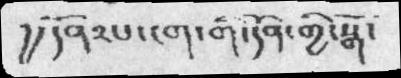།།དོན༢པ་ངག་གི་དོན་གྱི་སྒོ་
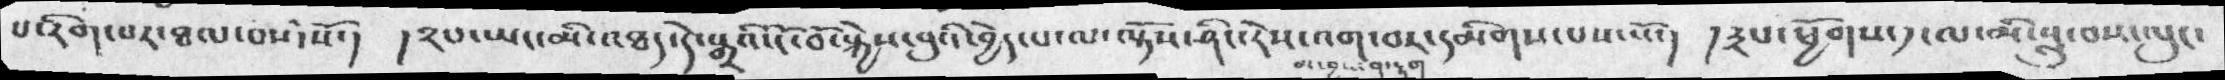པ་རིག་པར་ཐལ་བས་སོ་།  ། ༢པ་ཡང་མི་འཐད་དེ་སྒྲའི་ངོ་བོ་སྐྱེས་བུའི་བྱེད་པ་ལ་ལྟོས་ཤིང་རེས་འག་བར་དམིགས་པས་སོ་།   །༣པ་ཕྱོགས་༡་ལ་མི་སླུ་བས་ལུང་
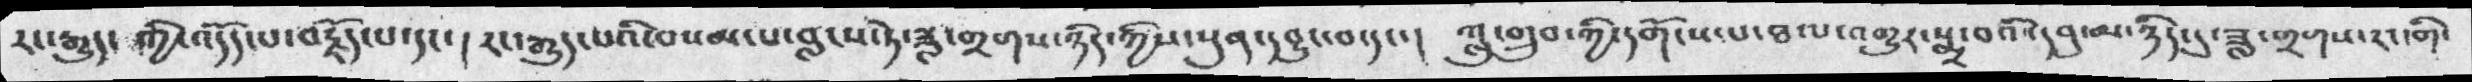རང་རྒྱུད  ཀྱི་འདོད་པ་བརྗོད་པ་དང་།  རང་རྒྱུད་པའི་བསམ་པ་བླངས་ཏེ་ཟླ་གྲགས་ཉིད་ཀྱིས་སུན་དབྱུང་བ་དང་། ཀླུ་གྲུབ་ཀྱི་དགོངས་པ་ཐལ་འགྱུར་སྨྲ་བའི་དདབུ་མ་ཉིད་དུ་ཟླ་གྲགས་རང་གི་
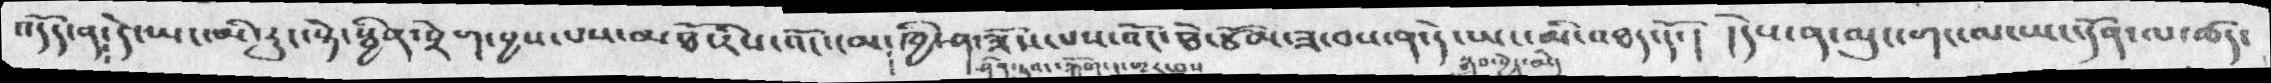འདོད་ན།  དེ་ཡང་མི་རུང་སྟེ་སྦྱིན་སྲེག་བྱས་པས་མཐོ་རིས་འོང་མ།ཁྱི་ཤ་ཟོས་པས་འོང་ཐེ་ཙམ་ས་བས་ན་དེ་ཡང་སྒབ་བྱེད་མི་འཐད་དོ་།  །དེས་ན་མུང་གང་ལ་ཡང་དོན་ལ་ཚད་
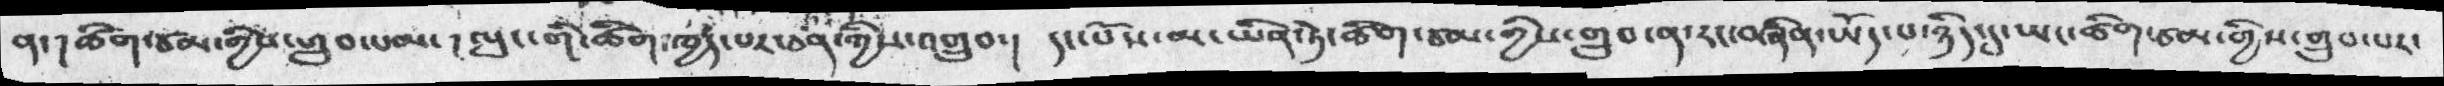ན་། ཚིག་ཙམ་གྱིས་གྲུབ་པམ་། ལུང་གི་ཚིག་ཁྱད་པར་ཅན་གྱིས་འགྲུབ་། དང་པོས་མ་ཡིན་ཏེ་ཚིག་ཙམ་གྱིས་གྲུབ་ན་རང་བཞིན་ཡོད་པ་ཉིད་དུ་ཡང་ཚིག་ཙམ་གྱིས་གྲུབ་པར་
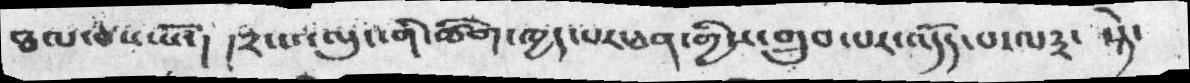ཐལ་བས་སོ་།  ། ༢་པ་ལུང་གི་ཚིག་ཁྱད་པར་ཅན་གྱིས་གྲུབ་པར་འདོད་པ་ལ༣་  སྟེ་
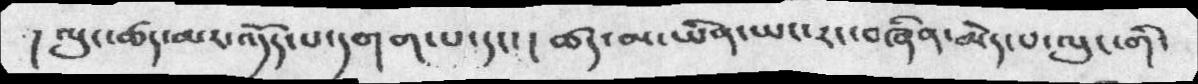། ལུང་ཚད་མར་འདོད་པ་དགག་པ་དང་། ཚད་མ་ཡིན་ཡང་རང་བཞིན་མེད་པ་ལུང་གི་
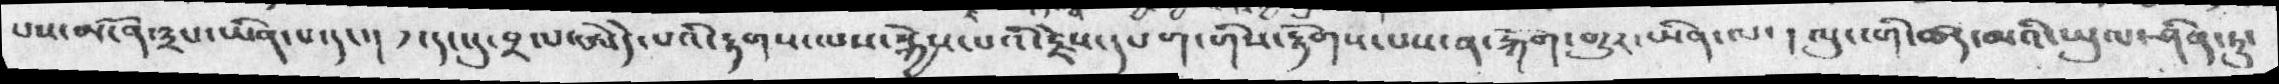པས་མངོན་ཟས་ཡིན་པ་དང་།  ་དང་དུ་བྲལ་ཨེདེ་པའི་རྟགས་པས་སྐྱེས་པའི་རྗེས་དཔག་གིས་རྟོགས་པས་ན་སྐོག་བདུར་ཡིན་ལ་། ལུང་གི་ཚད་ངའི་མའི་ཡུལ་ཤིན་ཏུ་
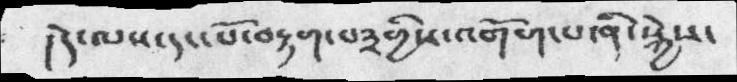།དེ་ལས་དང་པོ་བརྟག་པ༣གྱིས་འགོག་པ་ནི་སྐྱེས་
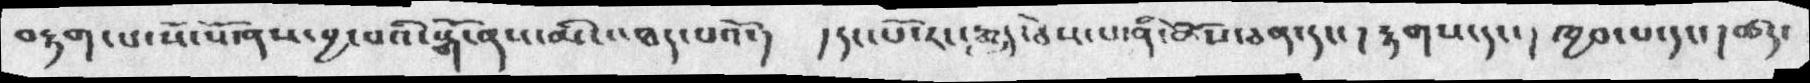བརྟག་པ་སོ་སོ་ནས་བྱ་བའི་སྒོ་ནས་མི་འཐད་པའོ་།  ། དང་པོ་རང་རྒྱུད་ཅེས་པ་ནི་ཆོས་ཅན་དང་ ། རྟགས་དང་ ། ཁྱབ་པ་དང་། ཚད་
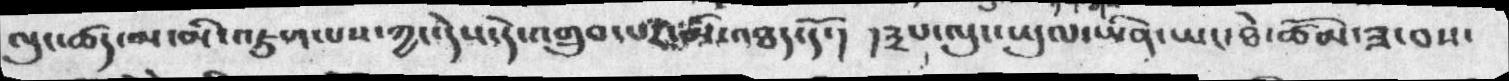ལུང་ཚད་མ་མི་འཇུག་པས་ཀྱང་དེས་དེ་འགྲུབ་པར་མི་འཐད་དོ་།   །༣པ་ལུང་ཡུལ་ཡིན་ཡང་ཐེ་ཚོམ་ཟ་བས་
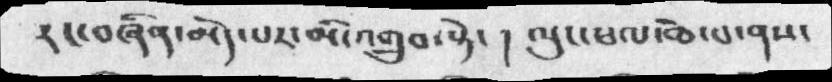རང་བཞིན་མེད་པར་མི་འགྲུབ་སྟེ་  ། ལུང་ཕལ་ཆེ་བ་ནས་
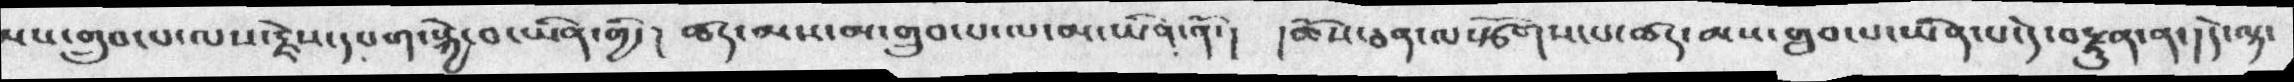སས་གྲུབ་པ་ལས་རྗེས་དཔག་སྐྱེ་བ་ཡིན་གྱི་། ཚད་མས་མ་གྲུབ་པ་ལ་མ་ཡིན་ནོ་། །ཆོས་ཅན་ལསྩོགས་པ་གྲུབ་པ་ཡིན་དེ་བརྗུན་ན་། དེར་ལྟ་
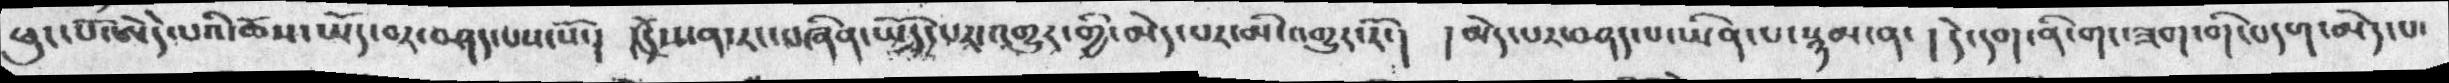ཕུང་པོ་ཨེདེ་པའི་ཆོས་ཡོད་བར་བཤད་པས་སོ་།  ་དེས་ན་རང་བཞིན་ཡོདྭ་པར་འགྱུར་གྱི་མེད་པར་མི་འགྱུར་རོ་།  ། མེད་པར་བཤད་པ་ཡིན་པ་སྙམ་ན་ ། དེ་དག་ནི་གང་ཟག་གི་བདག་མེད་པ་
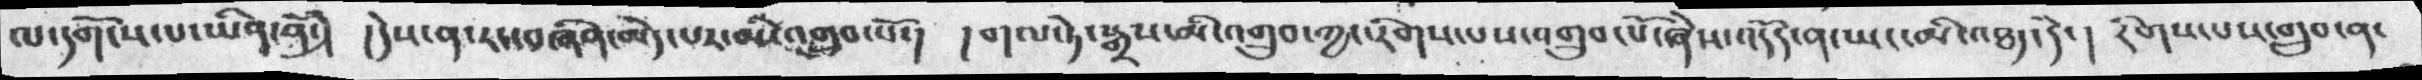ལ་དགོངས་པ་ཡིན་ནཾ་དུ་  ། དེས་ན་རང་བཞིན་མེད་པར་མིར་འགྲུབ་པོ་།   ། གལ་ཏེ་སྒྲས་མི་འགྲུབ་ཀྱང་རིགས་པས་འགྲུབ་པོ་ཞེས་འདོད་ན་ཡང་མི་འཐད་ེ་།   རིགས་པས་གྲུབ་ན་
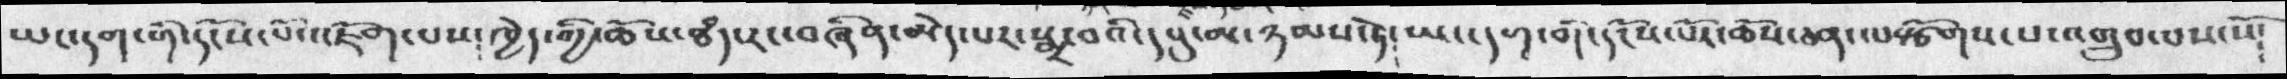ཡང་དག་གི་དངོས་པོ་འཇོག་པས་ཁྱེད་གྱི་ཆོས་ཐཾད་རང་བཞིན་མེད་པར་སྨྲ་བའི་དབུ་མ་ཉམས་ཏེ་ཡང་དག་གི་དངོས་པོར་ཆོས་ཅན་ལསྩོགས་པ་འགྲུབ་པས་སོ་
